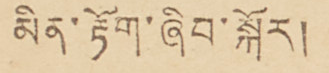མིན་རྟོག་ཞིབ་སྐོར།
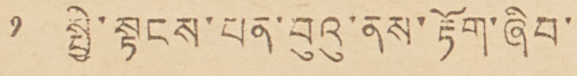༡ སྤྱི་སྟངས་པན་བུའུ་ནུས་རྟོག་ཞིབ་
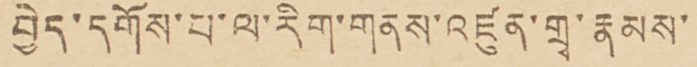བྱེད་དགོས་པ་ལ་རིག་གནས་འཛུན་གྲྭ་རྣམས་
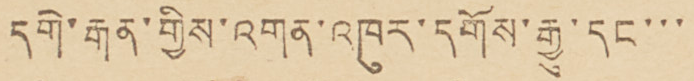དགེ་རྒན་གྱིས་འགན་འཁུར་དགོས་རྒྱུ་དང་་་
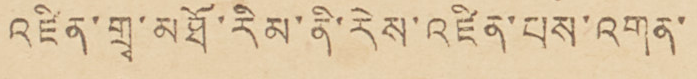འཛིན་གྲྭ་མཐོ་རིམ་ནི་རེས་འཛིན་པས་འགན་
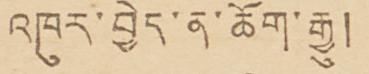འཁུར་བྱེད་ན་ཆོག་རྒྱུ།
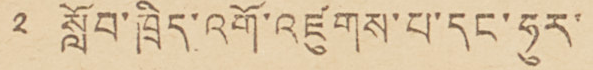༢ སློབ་ཁྲིད་འགོ་འཛུགས་པ་དང་ཧུར་
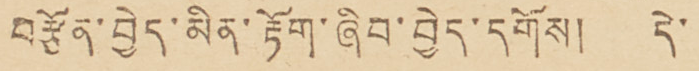བརྩོན་བྱེད་མིན་རྟོག་ཞིབ་བྱེད་དགོས། དེ་
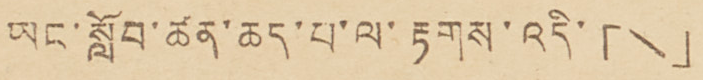ཡང་སློབ་ཚན་ཆད་པ་ལ་རྟགས་འདི་「＼」
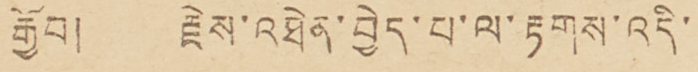རྒྱོབ། རྗེས་འཐེན་བྱེད་པ་ལ་རྟགས་འདི་
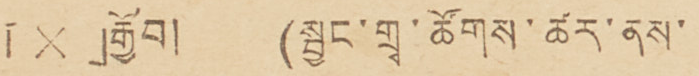「✕」རྒྱོབ། (སྦྱང་གྲྭ་ཚོགས་ཚར་ནས་
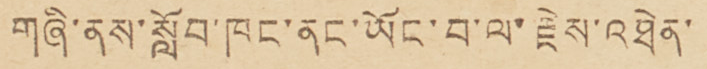གཞི་ནས་སློབ་ཁང་ནང་ཡོང་བ་ལ་རྗེས་འཐེན་
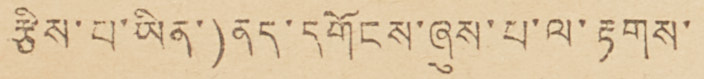རྩིས་པ་ཡིན་)ནད་དགོངས་ཞུས་པ་ལ་རྟགས་
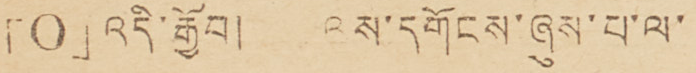「〇」འདི་རྒྱོབ། ལས་དགོངས་ཞུས་པ་ལ་
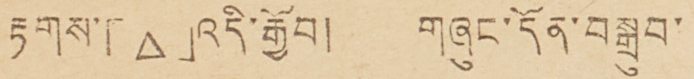རྟགས་「△」འདི་རྒྱོབ། གཞུང་དོན་བསྒྲུབ་
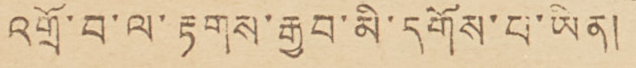འགྲོ་བ་ལ་རྟགས་རྒྱབ་མི་དགོས་པ་ཡིན།
